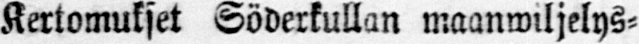Kertomukset Söderkullan maanwiljelys-
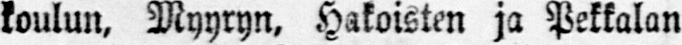koulun, Myyryn, Hakoisten ja Pekkalan
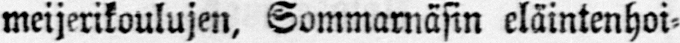meijerikoulujen, Sommarnäsin eläintenhoi-
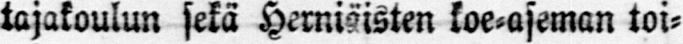tajakoulun sekä Herniäisten koe-aseman toi-
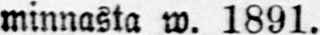minnasta w. 1891.
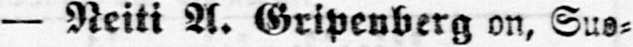— Neiti A. Gripenberg on, Suo-
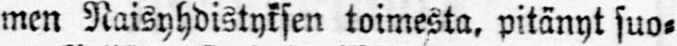men Naisyhdistyksen toimesta, pitänyt suo-
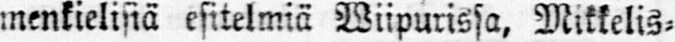menkielisiä esitelmiä Wiipurissa, Mikkelis-
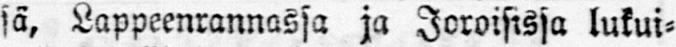sä, Lappeenrannassa ja Joroisissa lukui-
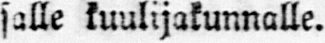salle kuulijakunnalle.
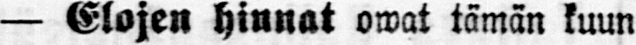— Elojen hinnat owat tämän kuun
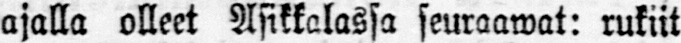ajalla olleet Asikkalassa seuraawat: rukiit
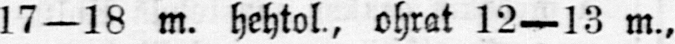17—18 m. hehtol., ohrat 12—13 m.,
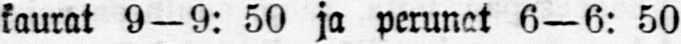kaurat 9—9: 50 ja perunat 6—6: 50
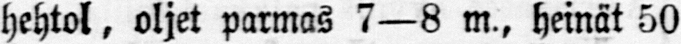hehtol, oljet parmas 7—8 m., heinät 50
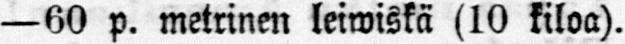—60 p. metrinen leiwiskä (10 kiloa).
